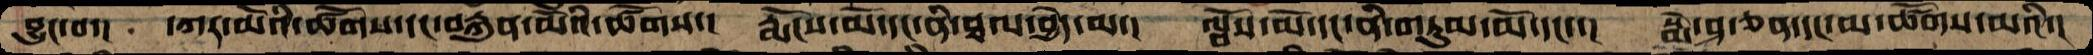བྱུང་བ་།  དཀར་མོའི་ཚོགས་དང་བརྐུན་མོའི་ཚོགས་།   རྨོངས་མོ་དང་ནི་ཐལ་བྱེད་མ་།   ལྦོས་མོ་དང་ནི་གཏུམ་མོ་དང་་།   སྨེ་ཤ་ཅན་དང་མ་ཚོགས་མའི་།
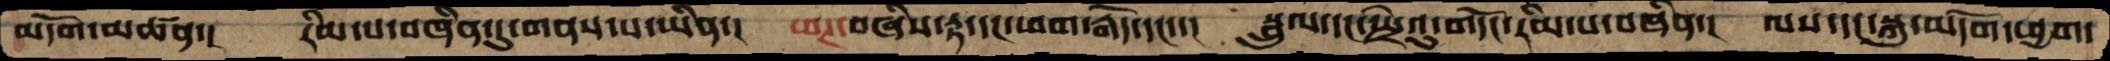མདོག་མཚན་།   རིམ་པ་བཞིན་དུ་གནས་པ་ཡིན་།  ཕཊ་བཞིས་རྟ་དང་ཕག་རྒོད་དང་་།   སྦྲུལ་དང་སྤྲེའུ་གདོང་རིམ་པ་བཞིན་།  ལས་དང་སྐུ་མདོག་ཕྱག་
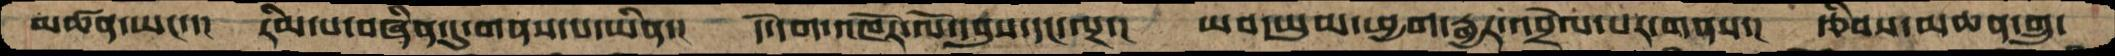མཚན་ཡང་་།   རིམ་པ་བཞིན་དུ་གནས་པ་ཡིན་།    དེ་དག་འཁོར་ལོ་དབུས་དང་ལྔ་།    ཡབ་ཡུམ་ཕྱག་རྒྱར་འབྲེལ་པར་གནས་།   རྩིབས་མཆན་གྲུ་
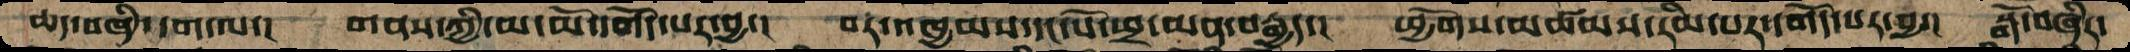ཆད་བཞི་དག་ལ་།     གནས་ཀྱི་མ་མོ་དགོད་པར་བྱ་།    བར་འཁྱམས་དང་པོ་ཕྲ་མན་བརྒྱད་།    ཕྱོགས་མཚམས་རིམ་པར་དགོད་པར་བྱ་།  སྒོ་བཞིར་
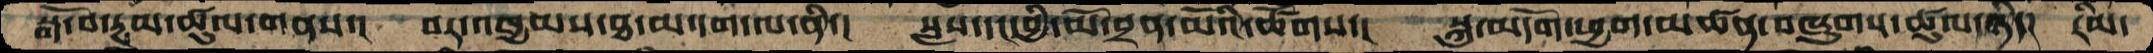སྒོ་བ་རྔམ་ཚུལ་གནས་།   བར་འཁྱམས་ཐ་མ་དག་ལ་ནི་།    སླས་དང་བྱི་མོ་བྲན་མོའི་ཚོགས་།   སྐུ་མདོག་ཕྱག་མཚན་བཞུགས་ཚུལ་ཉིད།  རིམ་
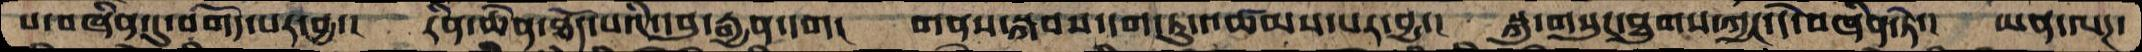པ་བཞིན་དུ་བགོད་པར་བྱ་།   རིན་ཆེན་ཐོད་པའི་དབུ་རྒྱན་དག།   གནས་སྐབས་དག་ཏུ་འཚམས་པར་བྱ་།   སྐུ་གསུང་ཐུགས་ཀྱང་དེ་བཞིན་ཏེ་།   ཡན་ལཌ་
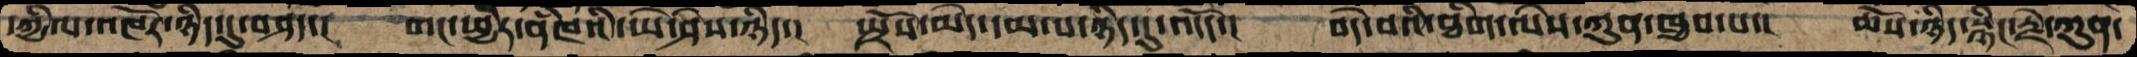དཀྱིལ་འཁོར་ཉིད་དུ་བཤད་།   གང་ཕྱིར་ནཾཁའི་ཡེ་ཤེས་ཉིད་།  སྤྲོས་མེད་དམ་པ་ཉིད་དུ་འདོད་།   བདེ་བའི་ཐིག་ལེས་ཀུན་ཁྱབ་པ་།    ཆོས་ཉིད་སྙིང་རྗེ་ཀུན་
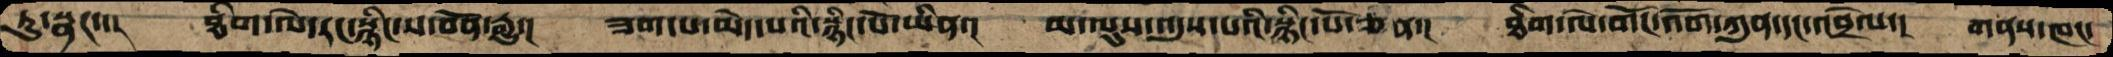ཏུ་སྣང་་།   ཐིག་ལེ་རང་སྙིང་ས་བོན་རྒྱུ་།  ཟག་པ་མེད་པའི་སྙིང་པོ་ཡིན་།   མ་ལུས་འདུས་པའི་སྙིང་པོ་ཅན་།   ཐིག་ལེ་གོང་འོག་ཀུན་དང་འབྲེལ་།  གནས་ཁང་
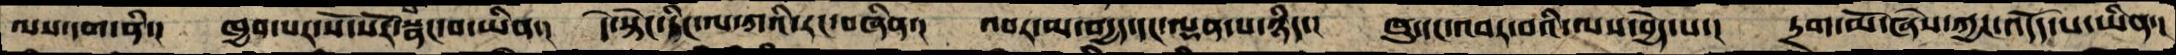ལས་དག་ནི་།  ཁྱད་པར་སོ་སོར་སྣང་བ་ཡིན་།  དེ་སྟེང་ཏིང་ལ་ཀའི་རང་བཞིན་།  འབར་མ་བདྱད་དང་ལྡན་པ་ཉིད་།  ཁུ་དང་འབར་བའི་ལས་བྱེད་པ་།  དྲག་མོ་ཞེས་ཀྱང་འདོད་པ་ཡིན་།
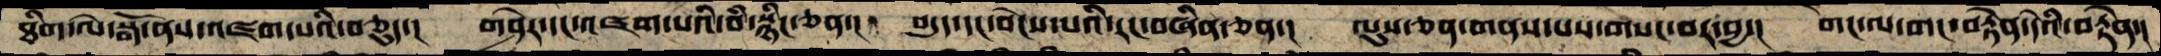ཐིག་ལེ་སྒོ་ནས་འཛག་པའི་བཅུད་།  གཤེར་དང་འཛག་པའི་བཾ་སྙིང་ཅན་།  བདུད་དང་བེངས་པའི་རང་བཞིན་ཅན་།  ལུས་ཅན་གནས་པས་གསང་བར་བྱ་།  གང་ལ་གང་བརྟེན་དེའི་བརྟེན་།
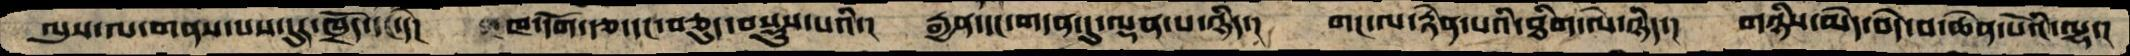ལུས་ལ་གནས་པས་དུར་ཁྲོད་དང་དེ།  ཁ་དོག་རྩ་དང་བཅུད་བསྡུས་པའི་།   རྒྱན་དང་གདན་དུ་ལྡན་པ་ཉིད་།  གང་ལ་རྟེན་པའི་ཐིག་ལེ་ཉིད་།  གཉིས་མེད་བདེ་བ་ཆེན་པོའི་ལྷ་།
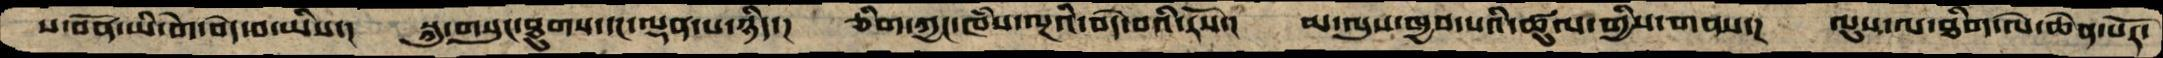ས་བོན་ཡི་གེ་བདེ་བ་ཡིས་།  སྐུ་གསུང་ཐུགས་དང་ལྡན་པ་ཉིད་།  ཅིག་ཀྱང་ཁཾས་ལྔའི་བདེ་བའི་རོས་།  མ་ལུས་ཁྱབ་པའི་ཚུལ་གྱིས་གནས་།  ལུས་ལ་ཐིག་ལེ་ཆེན་པོར་
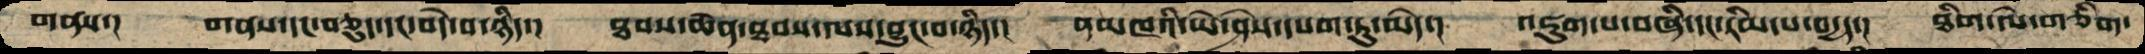གནས་།  གནས་དང་བཅུད་དང་བདེ་བ་ཉིད་།  ཐབས་ཆེན་ཐབས་ལས་བྱུང་བ་ཉིད་།  ནམཁའི་ཡེ་ཤེས་དཔག་ཏུ་མེད་།  འཇུག་པ་བཞི་དང་རིམ་པ་བདྱད་།  ཐིག་ལེ་གཅིག་
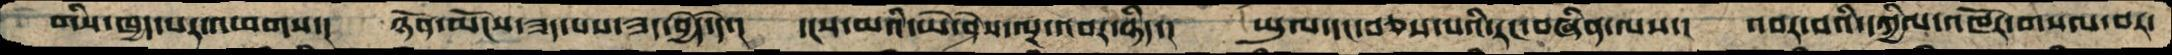གིས་ཁྱད་པར་འཕགས་།  ཉོན་མོངས་ཟད་པས་ཟད་བྱེད་དེ་།   དངས་མའི་ཡེ་ཤེས་ལྔ་འབར་ཉིད་།  ཡུལ་དང་བཅས་པའི་རང་བཞིན་ལས་།  འབར་བའི་དཀྱིལ་འཁོར་གསལ་བར་
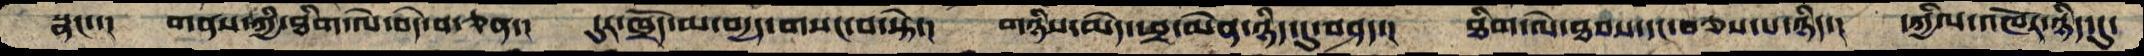སྣང་་།  གནས་ཀྱི་ཐིག་ལེ་བདེ་བ་ཅན་།  དུར་ཁྲོད་མ་བདྱད་གསང་བ་སྟེ་།  གཉིས་མེད་ཕྲ་མེན་ཉིད་དུ་བཤད་།  ཐིག་ལེ་ཐབས་དང་བཅས་པ་ཉིད་།  དཀྱིལ་འཁོར་ཉིད་དུ་
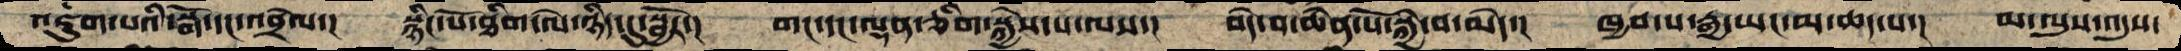འཇུག་པའི་སྒོ་དང་འབྲེལ་།  སྙིང་པོ་ཐིག་ལེ་ཉིད་དུསྦྱོར་།  གང་དང་ལྷན་ཅིག་སྐྱེས་པ་ལས་།  བདེ་བ་ཆེན་པོ་སྐྱེ་བ་མེད་།  ཁྱབ་པ་རྒྱ་ཡང་མ་ཆད་པ་།  མ་ལུས་འདུས་
